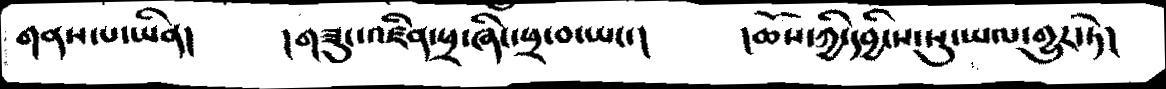གནས་པ་ཡིན།   །གཟུང་འཛིན་ཕྲ་ཞིང་ཕྲ་བ་ཡང་།    །ཆོས་ཀྱི་དབྱིངས་སུ་ཡལ་གྱུར་ཏེ།
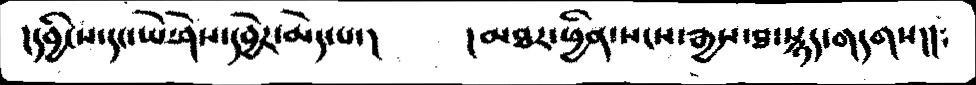།དབྱིངས་དང་ཡེ་ཤེས་དབྱེར་མེད་པ་།    །མཐར་ཕྱིན་སངས་རྒྱས་ཐ་སྙད་གདགས་།།
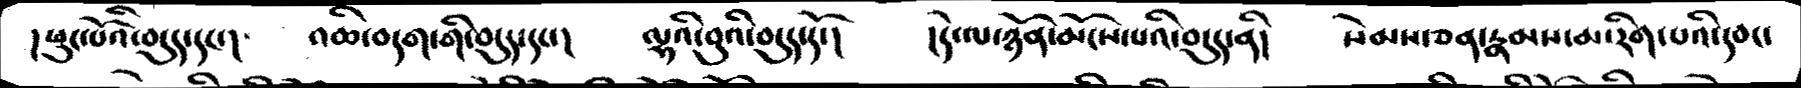།ཕུང་པོའི་བདུད་དང་།    འཆི་བདག་གི་བདུད་དང་།    ལྷའི་བུའི་བདུད་དོ་།    །དེ་ལ་ཉོན་མོངས་པའི་བདུད་ནི།    སེམས་ཅན་རྣམས་མ་རིག་པའི་དབང་
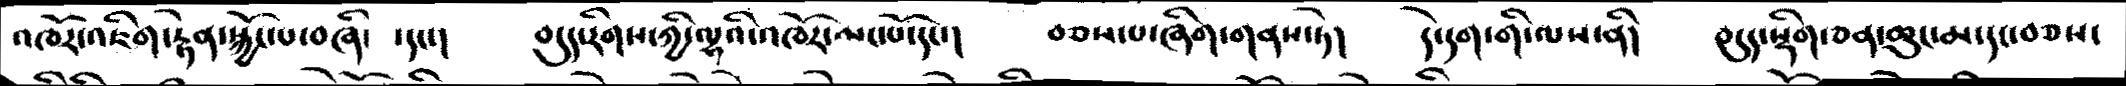འཁོར་འཇིག་རྟེན་སྐྱོང་པ་བཞི་ དང་།    བདུད་རིགས་ཀྱི་ལྷའི་འཁོར་མང་པོ་དང་།   བཅས་པ་ཞིག་གནས་ཏེ།   དེ་དག་གི་ལས་ནི།   བདུད་སྡིག་ཅན་ཆུང་མ་དང་བཅས་
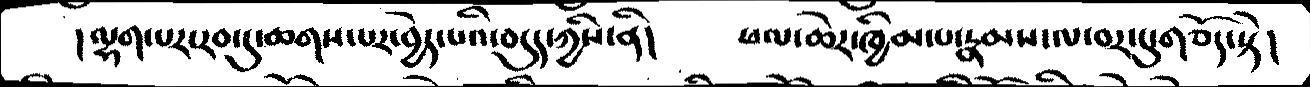།ལྷག་པར་རབ་དུ་ཆགས་པར་བྱེད་པའི་བདུད་ཀྱིས་ནི།      ཕལ་ཆེར་ཁྱིམ་པ་རྣམས་ལ་བར་དུ་གཅོད་སྟེ།
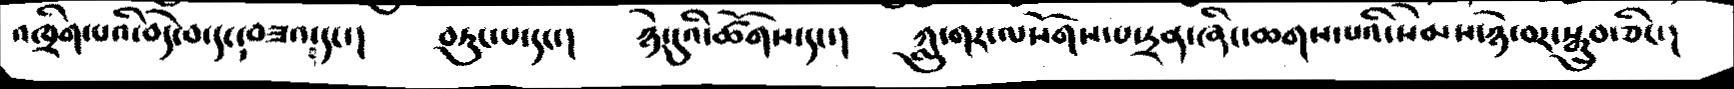འཁྲིག་པའི་བདེ་བ་དང་བཟའ་བ་དང་།    བཏུང་པ་དང་།    ཉེ་དུའི་ཚོགས་དང་།   ཀླུ་གར་ལསོགས་པ་དྲན་ཞིང་ཆགས་པའི་སེམས་ཉེ་བར་སྒྲུབ་ཅིང་།
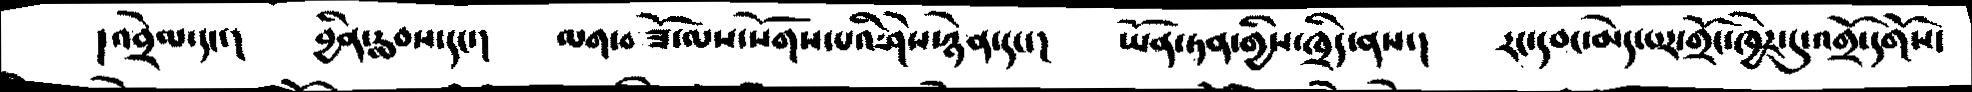།འབྲེལ་དང་།    བྱིན་རླབས་དང་།     ལག་བཟོ་ལས་སོགས་པའི་ཤེས་ཉེན་དང་།   ཡོན་ཏན་གྱིས་ཁྲིད་ནས་།   རང་དབང་མེད་པར་གྲོང་ཁྱེར་དུ་འགྲོ་དགོས་
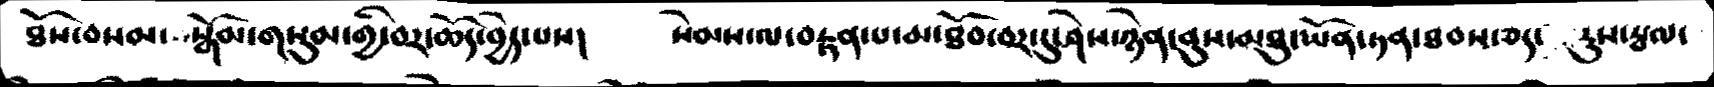ཐོས་བསམ་སྒོམ་གསུམ་གྱི་བར་ཆོད་བྱེད་པས།  སེམས་ལ་བརྟན་པ་མ་ཐོབ་བར་དུ་ཤེས་ཉེན་ནུས་མཐུ་ཡོན་ཏན་ཐབས་ཅད་ རུས་སྦལ་
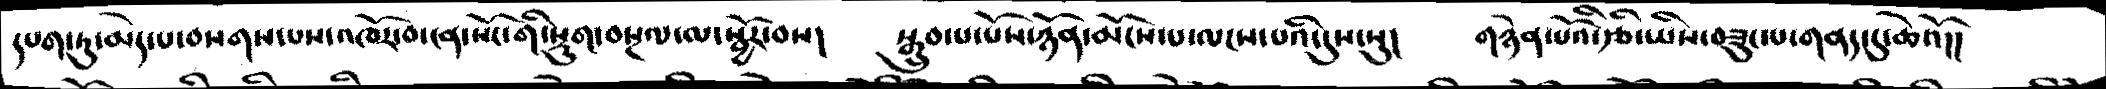དཔག་ཏུ་མེད་པ་བསགས་པས་འཁོར་བ་ངན་སོང་གི་སྡུག་བསྔལ་ལ་སྦྱོར་བས།    སྒྲུབ་པ་པོས་ཉོན་མོངས་པ་ལངས་པའི་དུས་སུ།   གཉེན་པོའི་རྩི་ཡིས་བཟུང་པ་གནད་དུ་ཆེའོ།།
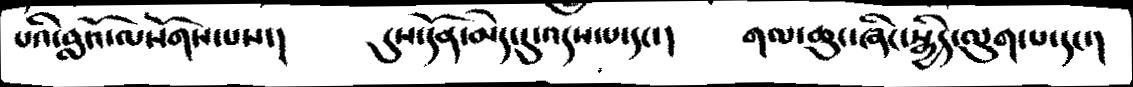པའི་བླའོ་ལསོགས་པས་།    དུས་དོན་མེད་དུ་འདས་པ་དང་།    གལ་ཆུང་ཞིང་སྒྱིད་ལུག་པ་དང་།
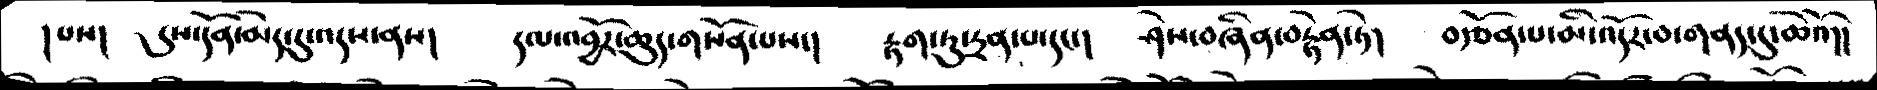།པས།  དུས་དོན་མེད་དུ་འདས་ནས།  དལ་འབྱོར་ཆུད་གསོན་པས་།  རྟག་ཏུ་དྲན་པ་དང་།  ཤེས་བཞིན་བརྟེན་ཏེ།  བརྩོན་པ་མི་འདོར་བ་གནད་དུ་ཆེའོ།།
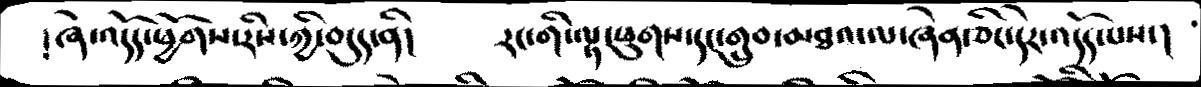།ཞེ་འདོད་ཕྱོགས་རིས་ཀྱི་བདུད་ནི།  རང་གི་ལྟ་ཕུགས་དང་གྲུབ་མཐའ་ལ་ཞེན་ཅིང་དེར་འདོད་པས་།
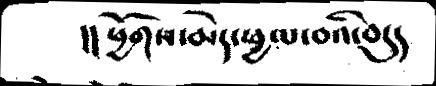།། ཕྱོགས་མེད་ཕྱལ་བའི་བདུད
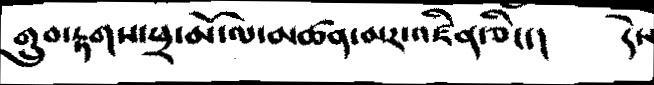གྲུབ་རྟོགས་ཕྲ་མོ་ལ་མཚན་མར་འཛིན་ཅིང་།   དེས
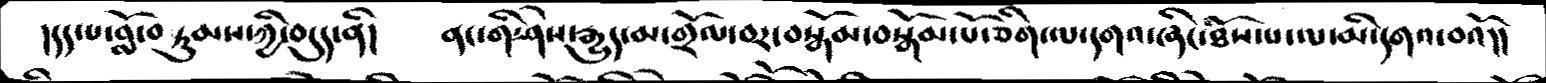།དད་པ་བློ་བཏུམས་ཀྱི་བདུད་ནི་།    ནང་གི་ཤེས་རྒྱུད་མ་གྲོལ་བར་བསྒོམ་བསྒོམ་པོ་ཅིག་ལ་དགའ་ཞིང་ཐོས་པ་ལ་མི་དགའ་བའོ།།
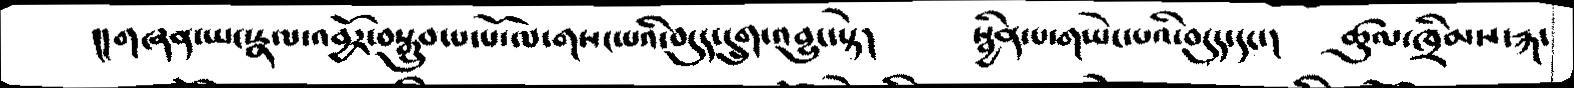།།གཞན་ཡང་རྣལ་འབྱོར་བསྒྲུབ་པ་པོ་ལ་གསང་པའི་བདུད་དྲུག་འབྱུང་སྟེ།    སྦྱིན་པ་གཡེང་པའི་བདུད་དང་།    ཚུལ་ཁྲིམས་རྐ་
